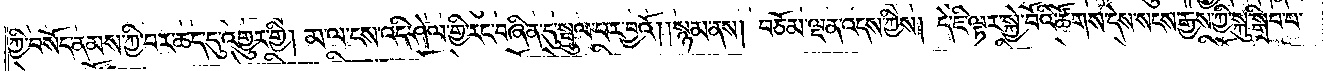ཀྱི་བསོད་ནམས་ཀྱི་བར་ཆད་དུ་འགྱུར་གྱི། མ་ལ་ངས་འདི་ཤེལ་གྱི་རང་བཞིན་དུ་སྤྲུལ་པར་བྱའོ། །སྙམ་ནས། བཅོམ་ལྡན་འདས་ཀྱིས། དེ་ཇི་ལྟར་སྐྱེ་བོའི་ཚོགས་དེས་སངས་རྒྱས་ཀྱི་སྐུ་སྒྲིབ་པ་
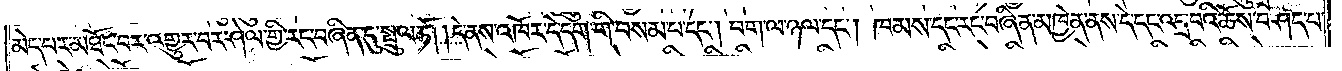མེད་པར་མཐོང་བར་འགྱུར་བར་ཤེལ་གྱི་རང་བཞིན་དུ་སྤྲུལ་ཏོ། །དེ་ནས་འཁོར་དེ་དག་གི་བསམ་པ་དང༌། བག་ལ་ཉལ་དང༌། ཁམས་དང་རང་བཞིན་མཁྱེན་ནས་དེ་དང་འདྲ་བའི་ཆོས་བཤད་པ་
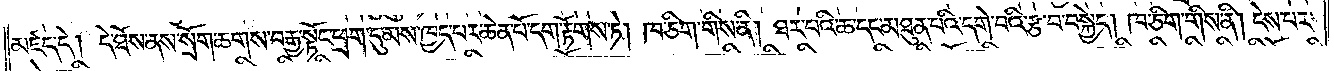མཛད་དེ། དེ་ཐོས་ནས་སྲོག་ཆགས་བརྒྱ་སྟོང་ཕྲག་དུ་མས་ཁྱད་པར་ཆེན་པོ་དག་རྟོགས་ཏེ། ཁ་ཅིག་གིས་ནི། ཐར་པའི་ཆ་དང་མཐུན་པའི་དགེ་བའི་རྩ་བ་བསྐྱེད། ཁ་ཅིག་གིས་ནི། ངེས་པར་
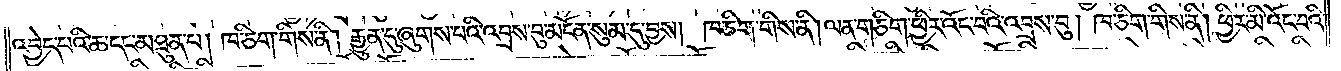འབྱེད་པའི་ཆ་དང་མཐུན་པ། ཁ་ཅིག་གིས་ནི། རྒྱུན་དུ་ཞུགས་པའི་འབྲས་བུ་མངོན་སུམ་དུ་བྱས། ཁ་ཅིག་གིས་ནི། ལྷན་གཅིག་ཕྱིར་འོང་བའི་འབྲས་བུ། ཁ་ཅིག་གིས་ནི། ཕྱིར་མི་འོང་བའི་
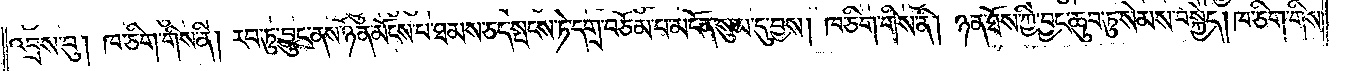འབྲས་བུ། ཁ་ཅིག་གིས་ནི། རབ་ཏུ་བྱུང་ནས་ཉོན་མོངས་པ་ཐམས་ཅད་སྤངས་ཏེ་དགྲ་བཅོམ་པ་མངོན་སུམ་དུ་བྱས། ཁ་ཅིག་གིས་ནི། ཉན་ཐོས་ཀྱི་བྱང་ཆུབ་ཏུ་སེམས་བསྐྱེད། ཁ་ཅིག་གིས་
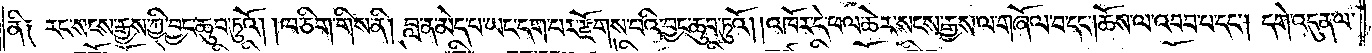ནི༑ རང་སངས་རྒྱས་ཀྱི་བྱང་ཆུབ་ཏུའོ། །ཁ་ཅིག་གིས་ནི། བླ་ན་མེད་པ་ཡང་དག་པར་རྫོགས་པའི་བྱང་ཆུབ་ཏུའོ། །འཁོར་དེ་ཕལ་ཆེར་སངས་རྒྱས་ལ་གཞོལ་བ་དང༌། ཆོས་ལ་འབབ་པ་དང༌། དགེ་འདུན་ལ་
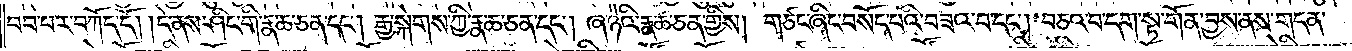བབ་པར་བཀོད་དོ། །དེ་ནས་ཤིང་གི་རྣ་ཆ་ཅན་དང༌། རྒྱ་སྐེགས་ཀྱི་རྣ་ཆ་ཅན་དང༌། ཞ་ཉེའི་རྣ་ཆ་ཅན་གྱིས། གཙང་ཞིང་བསོད་པའི་བཟའ་བ་དང༌། བཅའ་བ་དག་སྟ་གོན་བྱས་ནས་གདན་
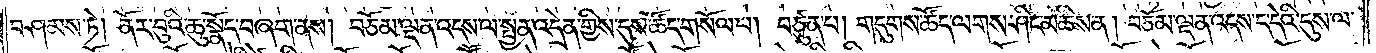བཤམས་ཏེ། ནོར་བུའི་ཆུ་སྣོད་བཞག་ནས། བཅོམ་ལྡན་འདས་ལ་སྤྱན་འདྲེན་གྱིས་དུས་ཚོད་གསོལ་པ། བཙུན་པ། གདུགས་ཚོད་ལགས་ཤིང་མཆིས་ན། བཅོམ་ལྡན་འདས་ད་དེའི་དུས་ལ་
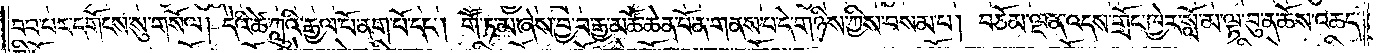བབ་པར་དགོངས་སུ་གསོལ། དེའི་ཚེ་ཀླུའི་རྒྱལ་པོ་ནག་པོ་དང༌། གཽ་ཏ་མ་ཞེས་བྱ་བ་རྒྱ་མཚོ་ཆེན་པོ་ན་གནས་པ་དེ་གཉིས་ཀྱིས་བསམ་པ། བཅོམ་ལྡན་འདས་གྲོང་ཁྱེར་སློ་མ་ལྟ་བུ་ན་ཆོས་འཆད་
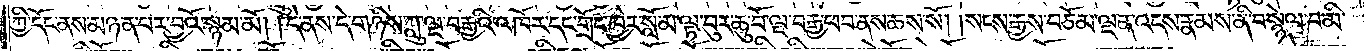ཀྱི་དོང་ནས་མཉན་པར་བྱའོ་སྙམ་མོ། །དེ་ནས་དེ་གཉིས་ཀླུ་ལྔ་བརྒྱའི་འཁོར་དང་གྲོང་ཁྱེར་སློ་མ་ལྟ་བུར་ཆུ་བོ་ལྔ་བརྒྱ་ཕབ་ནས་ཆས་སོ། །སངས་རྒྱས་བཅོམ་ལྡན་འདས་རྣམས་ནི་བསྙེལ་བ་མི་
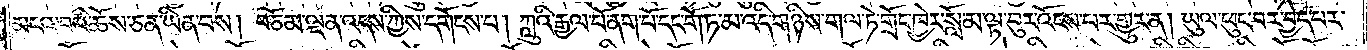མངའ་བའི་ཆོས་ཅན་ཡིན་པས། བཅོམ་ལྡན་འདས་ཀྱིས་དགོངས་པ། ཀླུའི་རྒྱལ་པོ་ནག་པོ་དང་གེ་ཏ་མ་འདི་གཉིས་གལ་ཏེ་གྲོང་ཁྱེར་སློ་མ་ལྟ་བུར་འོངས་པར་གྱུར་ན། ཡུལ་ཕུང་པར་བྱེད་པར་
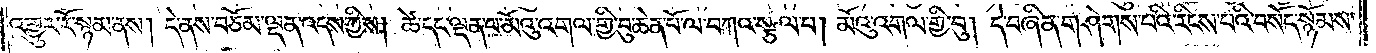འགྱུར་རོ་སྙམ་ནས། དེ་ནས་བཅོམ་ལྡན་འདས་ཀྱིས། ཚེ་དང་ལྡན་པ་མོའུ་འགལ་གྱི་བུ་ཆེན་པོ་ལ་བཀའ་སྩལ་པ། མོའུ་འགལ་གྱི་བུ། དེ་བཞིན་གཤེགས་པའི་རིངས་པའི་བསོད་སྙོམས་
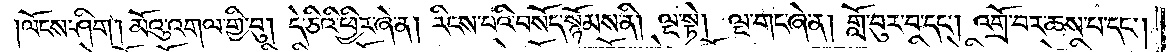ལོངས་ཤིག །མོའུ་འགལ་གྱི་བུ། དེ་ཅིའི་ཕྱིར་ཞེ་ན། རིངས་པའི་བསོད་སྙོམས་ནི། ལྔ་སྟེ། ལྔ་གང་ཞེ་ན། གློ་བུར་བ་དང༌། འགྲོ་བར་ཆས་པ་དང༌།
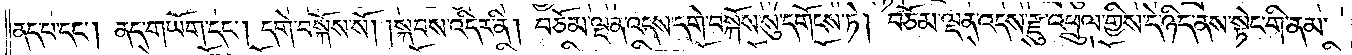ནད་པ་དང༌། ནད་གཡོག་དང༌། དགེ་བསྐོས་སོ། །སྐབས་འདིར་ནི། བཅོམ་ལྡན་འདས་དགེ་བསྐོས་སུ་དགོངས་ཏེ། བཅོམ་ལྡན་འདས་རྫུ་འཕྲུལ་གྱིས་དེ་ཉིད་ནས་སྟེང་གི་ནམ་
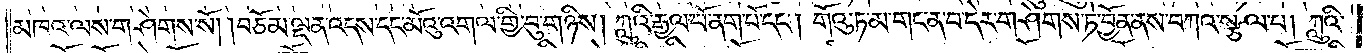མཁའ་ལས་གཤེགས་སོ། །བཅོམ་ལྡན་འདས་དང་མོའུ་འགལ་གྱི་བུ་གཉིས། ཀླུའི་རྒྱལ་པོ་ནག་པོ་དང༌། གོའུ་ཏ་མ་གང་ན་བ་དེར་གཤེགས་ཏེ་བྱོན་ནས་བཀའ་སྩལ་པ། ཀླུའི་
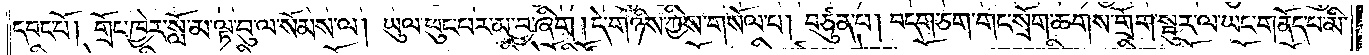དབང་པོ། གྲོང་ཁྱེར་སློ་མ་ལྟ་བུ་ལ་སོམས་ལ། ཡུལ་ཕུང་པར་མ་བྱ་ཞིག །དེ་གཉིས་ཀྱིས་གསོལ་པ། བཙུན་པ། བདག་ཅག་གང་སྲོག་ཆགས་གྲོག་སྦུར་ལ་ཡང་གནོད་པ་མི་
